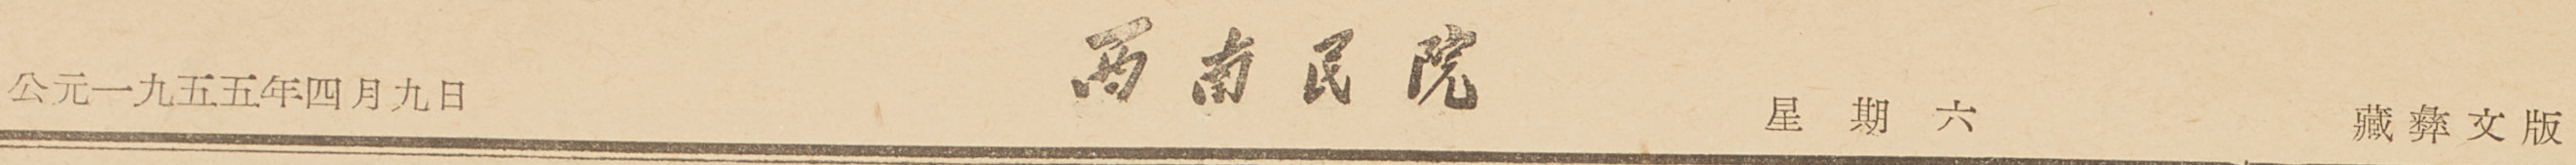公元一九五五年四月九日 西南民院 星期六 藏彝文版
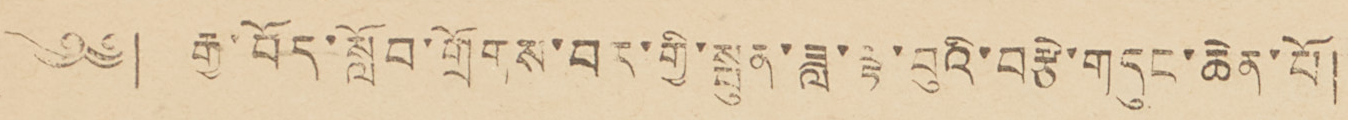༄༅། རྒྱ་བོད་སློབ་གྲོགས་བར་གྱི་སྤུན་ཟླ་ལྟ་བུའི་བརྩེ་གདུང་ཆེན་པོ།
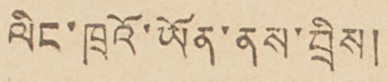ལིང་ཁྲའོ་ཡོན་ནས་བྲིས།
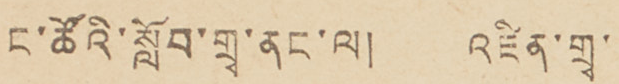ང་ཚོའི་སློབ་གྲྭ་ནང་ལ། འཛིན་གྲྭ་
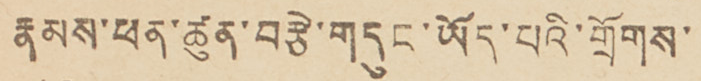རྣམས་ཕན་ཚུན་བརྩེ་གདུང་ཡོད་པའི་གྲོགས་
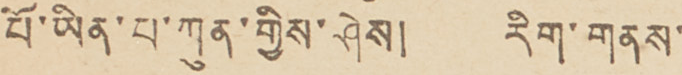པོ་ཡིན་པ་ཀུན་གྱིས་ཤེས། རིག་གནས་
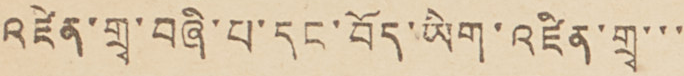འཛིན་གྲྭ་བཞི་པ་དང་བོད་ཡིག་འཛིན་གྲྭ་་་
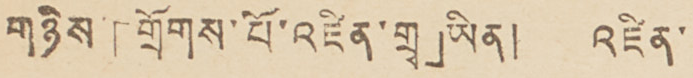གཉིས་「གྲོགས་པོ་འཛིན་གྲྭ」ཡིན། འཛིན་
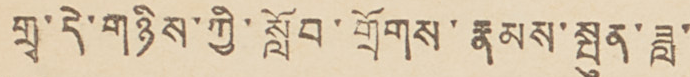གྲྭ་དེ་གཉིས་ཀྱི་སློབ་གྲོགས་རྣམས་སྤུན་ཟླ་
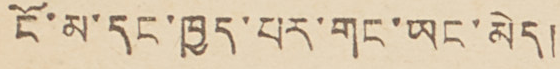ངོ་མ་དང་ཁྱད་པར་གང་ཡང་མེད།
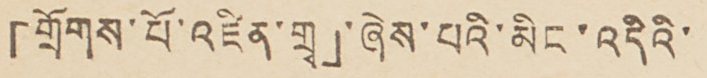「གྲོགས་པོ་འཛིན་གྲྭ」་ཞེས་པའི་མིང་འདིའི་
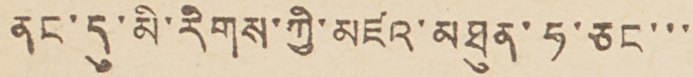ནང་དུ་མི་རིགས་ཀྱི་མཛའ་མཐུན་ཧ་ཅང་་་
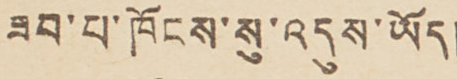ཟབ་པ་ཁོངས་སུ་འདུས་ཡོད།
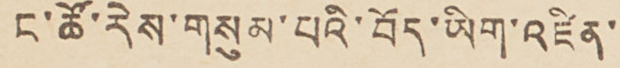ང་ཚོ་རེས་གསུམ་པའི་བོད་ཡིག་འཛིན་
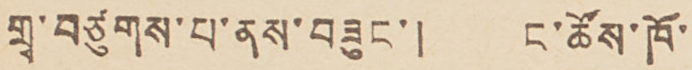གྲྭ་བཙུགས་པ་ནས་བཟུང་། ང་ཚོས་ཁོ་
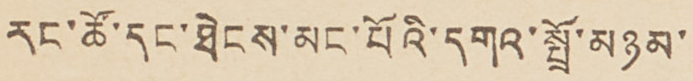རང་ཚོ་དང་ཐེངས་མང་པོའི་དགའ་སྤྲོ་མཉམ་
